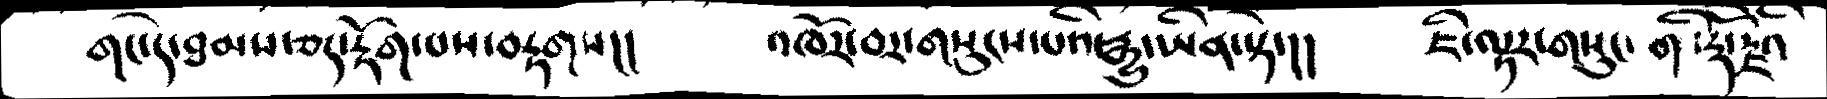གང་དེ་ཐམས་ཅད་རྟོག་པས་བརྟགས།།  འཁོར་བར་གསུངས་པའི་རྒྱུཡིན་ཏེ་།།   ཇི་ལྟར་གསུང་གི་རྡོ་རྗེའི
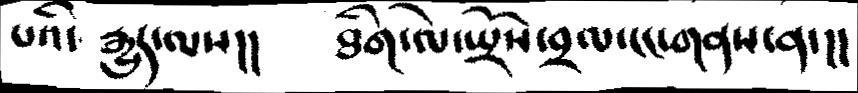པའི་ རྒྱུད་ལས།།  ཐིག་ལེ་སྤྲོས་བྲལ་ངང་གནས་ན་།།
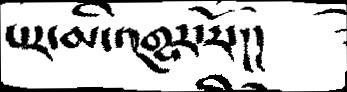པར་མི་འགྱུར་རོ་།།
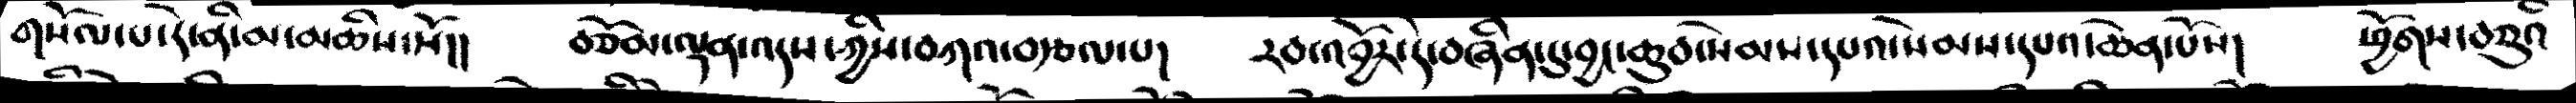གསོལ་པ་དེ་ནི་མ་མཆིས་སོ།།   བཅོམ་ལྡན་འདས་ཀྱིས་བཀའ་བརྩལ་པ།  རབ་འབྱོར་དེ་བཞིན་དུ་བྱང་ཆུབ་སེམས་དཔའ་སེམས་དཔའ་ཆེན་པོས།   ཕྱོགས་བཅུའི
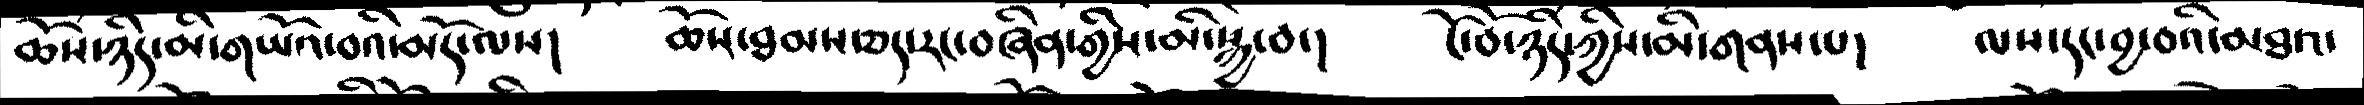ཆོས་ཉིད་མི་གཡོའ་བའི་མདོ་ལས།    ཆོས་ཐམས་ཅད་རང་བཞིན་གྱིས་མི་སྐྱེ་བ་།   ངོ་བོ་ཉིད་ཀྱིས་མི་གནས་པ།  ལས་དང་བྱ་བའི་མཐའ་
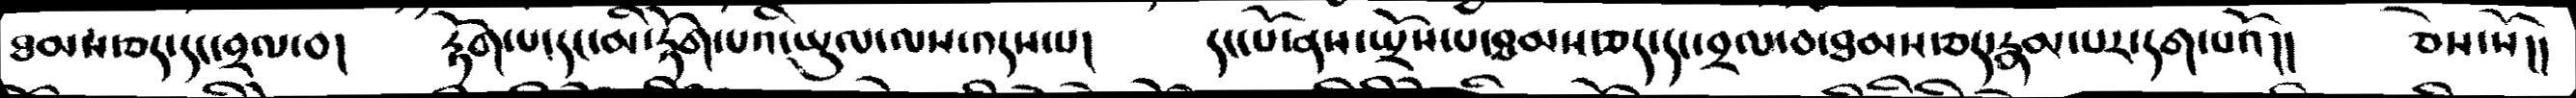ཐམས་ཅད་དང་བྲལ་བ།    རྟོག་པ་དང་མི་རྟོག་པའི་ཡུལ་ལས་འདས་པ།   དང་པོ་ནས་སྤྲོས་པ་ཐམས་ཅད་དང་བྲལ་བ་ཐམས་ཅད་རྣམ་པར་དག་པའོ།།  ཅེས་སོ།།
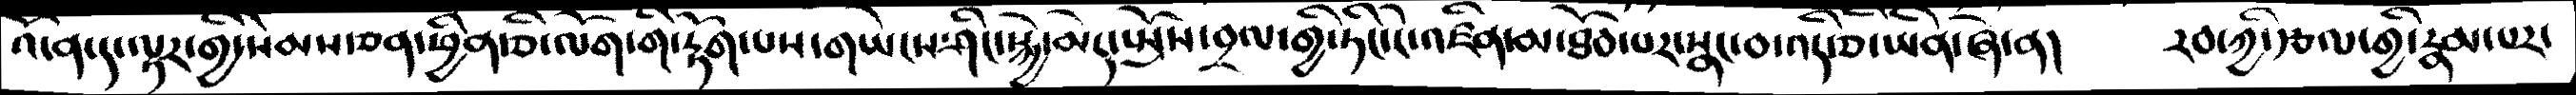འོ་ན་ད་ལྟར་གྱི་སེམས་ཅན་ཕྱིན་ཅི་ལོག་གི་རྟོག་པས་གཡེངས་ཤིང་སྤྲོས་བྲལ་གྱི་ཏིང་ངེ་འཛིན་མ་ཐོབ་པར་སྣང་བ་འདི་ཅི་ཡིན་ཞེ་ན།   རབ་ཀྱི་རྩལ་གྱི་རྣམ་པར་
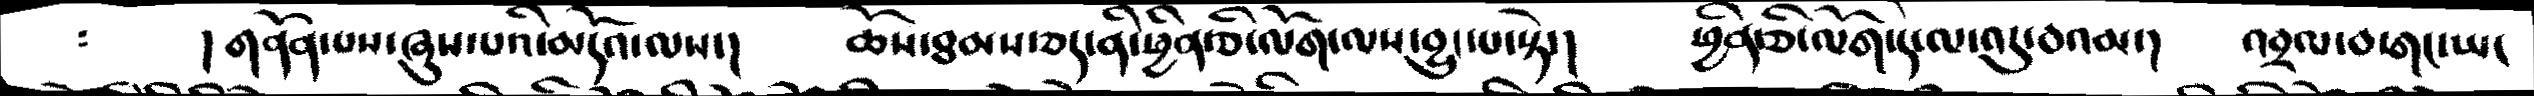།གནོན་པས་ཞུས་པའི་མདོའ་ལས་།    ཆོས་ཐམས་ཅད་ནི་ཕྱིན་ཅི་ལོག་ལས་བྱུང་པ་སྟེ་།    ཕྱིན་ཅི་ལོག་དེ་ལ་འདུ་བའམ་།   འབྲལ་བ་གང་ཡང
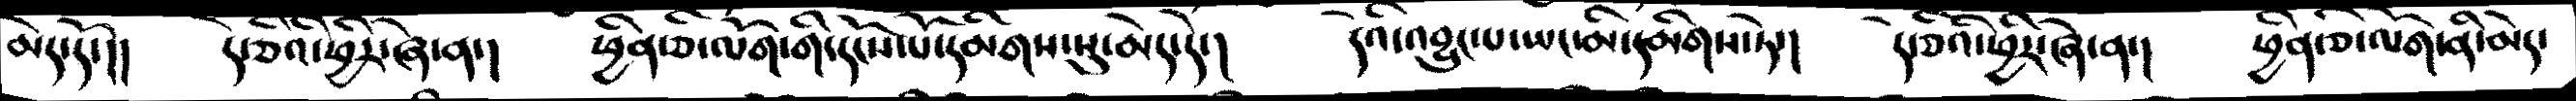མེད་དོ་།།    དེ་ཅིའི་ཕྱིར་ཞེ་ན་།    ཕྱིན་ཅི་ལོག་གི་དངོས་པོ་དམིགས་སུ་མེད་དེ་།   དེའི་འབྱུང་པ་ཡང་མི་དམིགས་ཏེ་།   དེ་ཅིའི་ཕྱིར་ཞེ་ན་།   ཕྱིན་ཅི་ལོག་ནི་མེད་
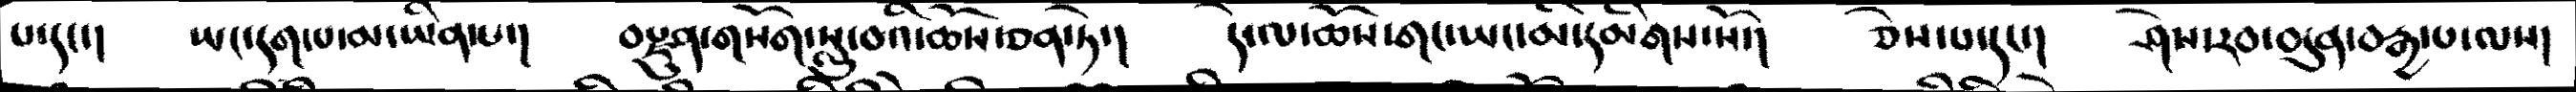པ་དང་།   ཡང་དག་པ་མ་ཡིན་པ་།   བརྫུན་གསོག་སླུ་བའི་ཆོས་ཅན་ཏེ་།   དེ་ལ་ཆོས་གང་ཡང་མི་དམིགས་སོ་།    ཅེས་པ་དང་།    ཤེས་རབ་བདུན་བརྒྱ་པ་ལས།
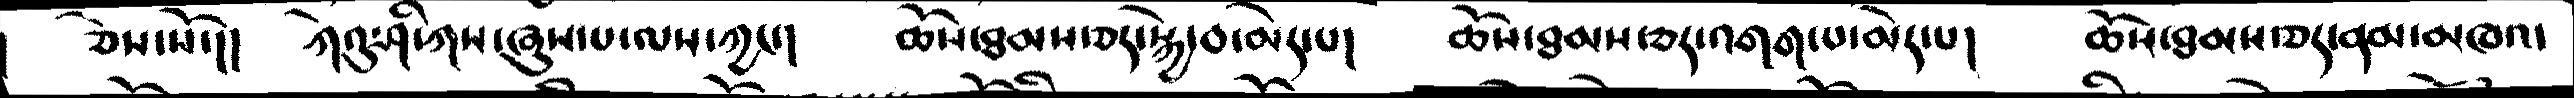ཅེས་སོ་།།    ཀེའུ་ཤི་ཀས་ཞུས་པ་ལས་ཀྱང་།      ཆོས་ཐམས་ཅད་སྐྱེ་བ་མེད་པ།     ཆོས་ཐམས་ཅད་འགག་པ་མེད་པ།     ཆོས་ཐམས་ཅད་ནམ་མཁའ་
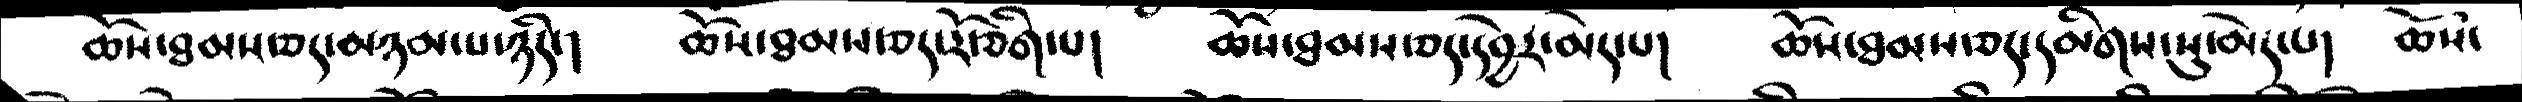ཆོས་ཐམས་ཅད་མཉམ་པ་ཉིད་།    ཆོས་ཐམས་ཅད་རོ་ཅིག་པ།    ཆོས་ཐམས་ཅད་དབྱེར་མེད་པ།      ཆོས་ཐམས་ཅད་དམིགས་སུ་མེད་པ།    ཆོས་
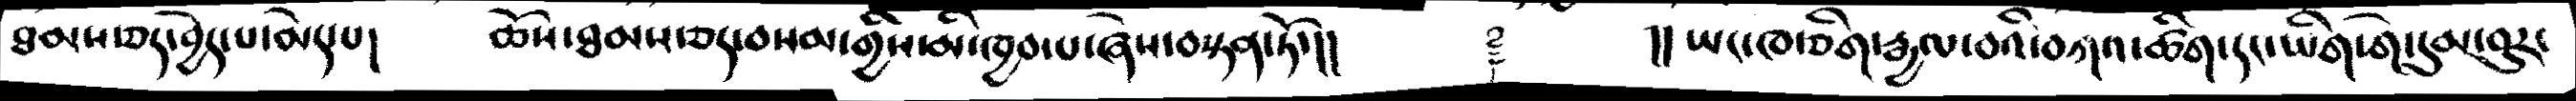ཐམས་ཅད་བྱེད་པ་མེད་པ།    ཆོས་ཐམས་ཅད་བསམ་གྱིས་མི་ཁྱབ་པ་ཞེས་བསྟན་ཏོ་།།   ࿑    །། ཡང་ཁ་ཅིག་རྒྱལ་བའི་བཀའ་ཚིག་དང་ཡིག་གེ་དུམ་བུར་
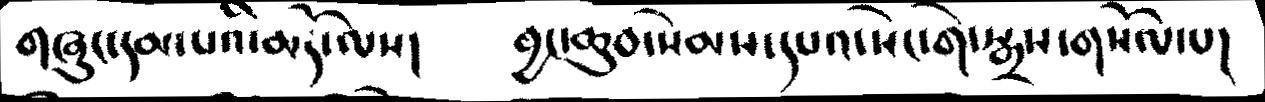གཞུང་དམ་པའི་མདོ་ལས།   བྱང་ཆུབ་སེམས་དཔའ་སེང་གེ་སྒྲས་གསོལ་པ།
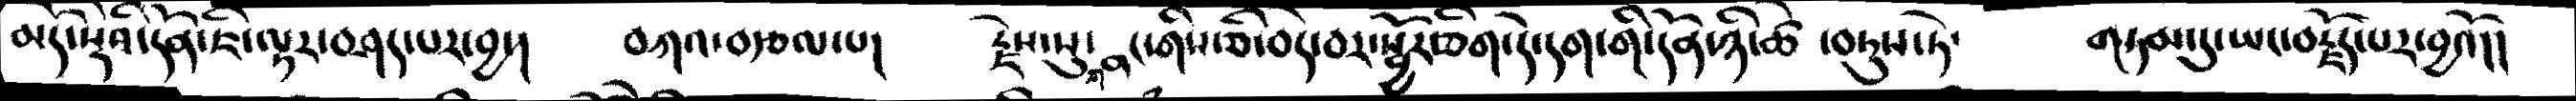མདོ་སྡེའི་དོན་ཇི་ལྟར་བཤད་པར་བྱ་།    བཀའ་བརྩལ་པ།    རྗེས་སུ་གནང་གིས་ཅི་བདེ་བར་སྦྱོར་ཅིག་དེ་དག་གི་དོན་ཉི་ཚེ་བཏུས་ཏེ་      གཏམ་དུ་ཡང་བརྗོད་པར་བྱའོ།།
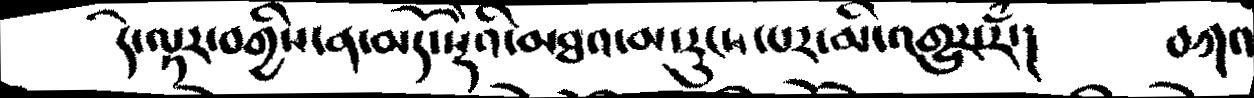དེ་ལྟར་བགྱིས་ན་མདོ་སྡེའི་མཐའ་མ་རུངས་པར་མི་འགྱུར་རྃ་།   བཀའ
